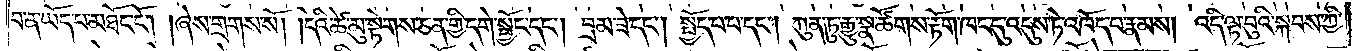བ་ན་ཡོད་པ་མཐོང་ངོ༌། །ཞེས་གྲགས་སོ། །དེའི་ཚེ་མུ་སྟེགས་ཅན་གྱི་དགེ་སྦྱོང་དང༌། བྲམ་ཟེ་དང༌། སྤྱོད་པ་བ་དང༌། ཀུན་ཏུ་རྒྱུ་སྣ་ཚོགས་རྟོག་ཁང་དུ་འདུས་ཏེ་འཁོད་པ་རྣམས། འདི་ལྟ་བུའི་སྐབས་ཀྱི་
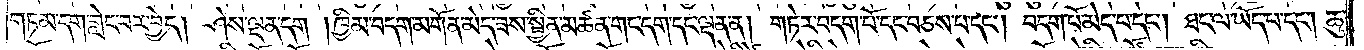གཏམ་དག་གླེང་བར་བྱེད། ཤེས་ལྡན་དག། ཁྱིམ་བདག་མགོན་མེད་ཟས་སྦྱིན་མཚན་གང་དག་དང་ལྡན་ན། གཏེར་བདག་པོ་དང་བཅས་པ་དང༌། བདག་པོ་མེད་པ་དང༌། ཐང་ལ་ཡོད་པ་དང༌། ཆུ་
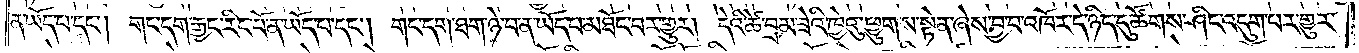ན་ཡོད་པ་དང༌། གང་དག་རྒྱང་རིང་པོ་ན་ཡོད་པ་དང༌། གང་དག་ཐག་ཉེ་བ་ན་ཡོད་པ་མཐོང་བར་གྱུར། དེའི་ཚེ་བྲམ་ཟེའི་ཁྱེའུ་ཕྱུགས་སྟེན་ཞེས་བྱ་བ་འཁོར་དེ་ཉིད་དུ་ཚོགས་ཤིང་འདུག་པར་གྱུར་
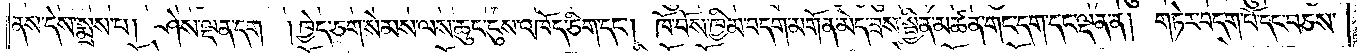ནས་དེས་སྨྲས་པ། ཤེས་ལྡན་དག །ཁྱེད་ཅག་སེམས་ལས་ཆུང་ངུས་འཁོད་ཅིག་དང༌། ཁོ་བོས་ཁྱིམ་བདག་མགོན་མེད་ཟས་སྦྱིན་མཚན་གང་དག་དང་ལྡན་ན། གཏེར་བདག་པོ་དང་བཅས་
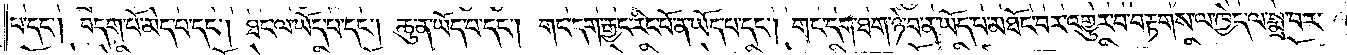པ་དང༌། བདག་པོ་མེད་པ་དང༌། ཐང་ལ་ཡོད་པ་དང༌། ཆུ་ན་ཡོད་པ་དང༌། གང་དག་རྒྱང་རིང་པོ་ན་ཡོད་པ་དང༌། གང་དག་ཐག་ཉེ་བ་ན་ཡོད་པ་མཐོང་བར་འགྱུར་བ་བརྟགས་ལ་ཁྱེད་ལ་སྨྲ་བར་
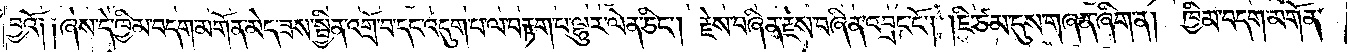བྱའོ༑ ༑ཞེས་དེ་ཁྱིམ་བདག་མགོན་མེད་ཟས་སྦྱིན་འགྲོ་བ་དང་འདུག་པ་ལ་བརྟག་པ་ལྷུར་ལེན་ཅིང༌། རྗེས་བཞིན་རྗེས་བཞིན་འབྲང་ངོ༌། །ཇི་ཙམ་དུས་གཞན་ཞིག་ན། ཁྱིམ་བདག་མགོན་
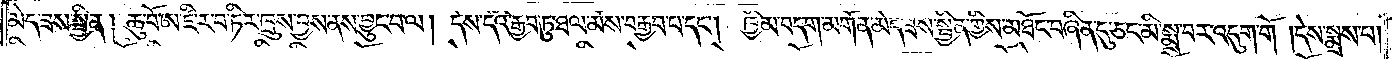མེད་ཟས་སྦྱིན། ཆུ་བོ་ཨ་ཛི་ར་བ་ཏིར་ཁྲུས་བྱས་ནས་བྱུང་བ་ལ། དེས་དེའི་རྒྱབ་ཏུ་ཐལ་མོས་བརྒྱབ་པ་དང༌། ཁྱིམ་བདག་མགོན་མེད་ཟས་སྦྱིན་གྱིས་མཐོང་བཞིན་དུ་ཅང་མི་སྨྲ་བར་འདུག་གོ །དེས་སྨྲས་པ།
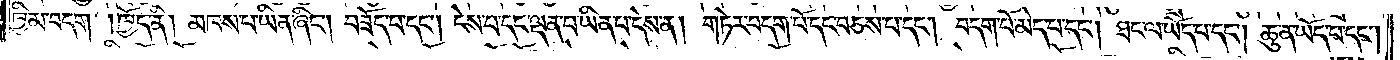ཁྱིམ་བདག །ཁྱོད་ནི། མཁས་པ་ཡིན་ཞིང༌། བཟོད་པ་དང༌། ངེས་པ་དང་ལྡན་པ་ཡིན་པ་དེས་ན། གཏེར་བདག་པོ་དང་བཅས་པ་དང༌། བདག་པོ་མེད་པ་དང༌། ཐང་ལ་ཡོད་པ་དང༌། ཆུ་ན་ཡོད་པ་དང༌།
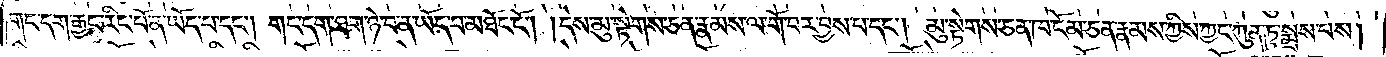གང་དག་རྒྱང་རིང་པོ་ན་ཡོད་པ་དང༌། གང་དག་ཐག་ཉེ་བ་ན་ཡོད་པ་མཐོང་ངོ༌། །དེས་མུ་སྟེགས་ཅན་རྣམས་ལ་གོ་བར་བྱས་པ་དང༌། མུ་སྟེགས་ཅན་ཁ་ངོམ་ཅན་རྣམས་ཀྱིས་ཀྱང་ཀུན་ཏུ་སྨྲས་པས།
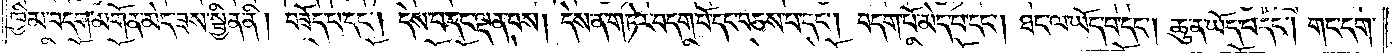ཁྱིམ་བདག་མགོན་མེད་ཟས་སྦྱིན་ནི། བཟོད་པ་དང༌། དེས་པ་དང་ལྡན་པས། དེས་ན་གཏེར་བདག་པོ་དང་བཅས་པ་དང༌། བདག་པོ་མེད་པ་དང༌། ཐང་ལ་ཡོད་པ་དང༌། ཆུ་ན་ཡོད་པ་དང༌། གང་དག་
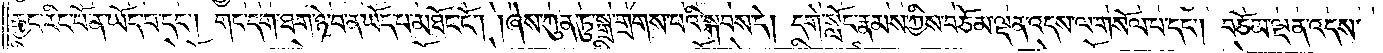རྒྱང་རིང་པོ་ན་ཡོད་པ་དང༌། གང་དག་ཐག་ཉེ་བ་ན་ཡོད་པ་མཐོང་ངོ༌། །ཞེས་ཀུན་ཏུ་སྒྲ་གྲགས་པའི་སྐབས་དེ། དགེ་སློང་རྣམས་ཀྱིས་བཅོམ་ལྡན་འདས་ལ་གསོལ་པ་དང༌། བཅོམ་ལྡན་འདས་
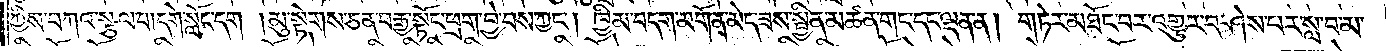ཀྱིས་བཀའ་སྩལ་པ། དགེ་སློང་དག །མུ་སྟེགས་ཅན་བརྒྱ་སྟོང་ཕྲག་བྱེ་བས་ཀྱང༌། ཁྱིམ་བདག་མགོན་མེད་ཟས་སྦྱིན་མཚན་གང་དང་ལྡན་ན། གཏེར་མཐོང་བར་འགྱུར་བ་ཤེས་པར་སླ་བ་མ་
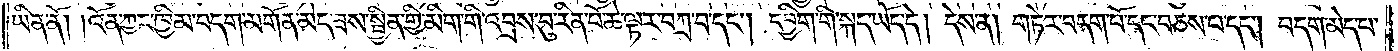ཡིན་ནོ། །འོན་ཀྱང་ཁྱིམ་བདག་མགོན་མེད་ཟས་སྦྱིན་གྱི་མིག་གི་འབྲས་བུ་རིན་པོ་ཆེ་ལྟར་བཀྲ་བ་དང༌། དབྱིག་གི་སྐད་ཡོད་དེ། དེས་ན། གཏེར་བདག་པོ་དང་བཅས་པ་དང༌། བདག་མེད་པ་
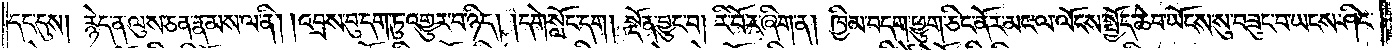དང་དུས། རྙེད་ན་ལུས་ཅན་རྣམས་ལ་ནི། །འབྲས་བུ་དག་ཏུ་འགྱུར་བ་ཉིད། །དགེ་སློང་དག། སྔོན་བྱུང་བ། རི་བོར་ཞིག་ན། ཁྱིམ་བདག་ཕྱུག་ཅིང་ནོར་མང་ལ་ལོངས་སྤྱོད་ཆེ་བ་ཡོངས་སུ་བཟུང་བ་ཡངས་ཤིང་
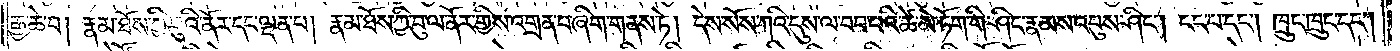རྒྱ་ཆེ་བ། རྣམ་ཐོས་ཀྱི་བུའི་ནོར་དང་ལྡན་པ། རྣམ་ཐོས་ཀྱི་བུ་ལ་ནོར་གྱིས་འགྲན་པ་ཞིག་གནས་ཏེ། དེས་སོས་ཀའི་དུས་ལ་བབ་པའི་ཚེ་མེ་ཏོག་གི་ཤིང་རྣམས་འབུས་ཤིང༌། ངང་པ་དང༌། ཁྲུང་ཁྲུང་དང༌།
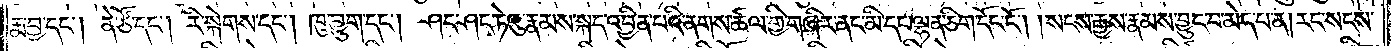རྨ་བྱ་དང༌། ནེ་ཙོ་དང༌། རི་སྐེགས་དང༌། ཁུ་བྱུག་དང༌། ཤང་ཤང་ཏེའུ་རྣམས་སྐད་འབྱིན་པའི་ནགས་ཚལ་གྱི་གཞིར་ནང་མི་དང་ལྷན་ཅིག་དོང་ངོ༌། །སངས་རྒྱས་རྣམས་བྱུང་བ་མེད་པ་ན། རང་སངས་
